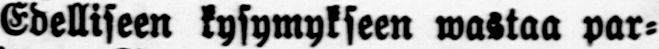Edelliseen kysymykseen wastaa par-
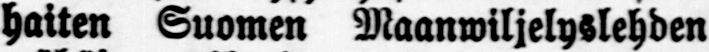haiten Suomen Maanwiljelyslehden
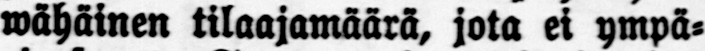wähäinen tilaajamäärä, jota ei ympä-
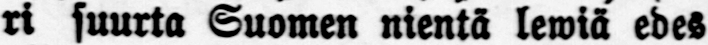ri suurta Suomen nientä lewiä edes
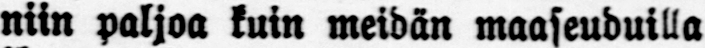niin paljoa kuin meidän maaseuduilla
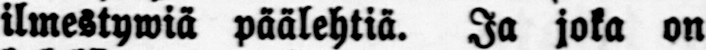ilmestywiä päälehtiä. Ja joka on
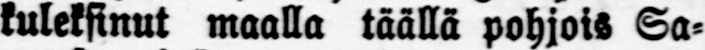kuleksinut maalla täällä pohjois Sa-
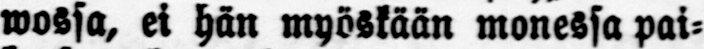wossa, ei hän myöskään monessa pai-
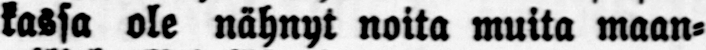kassa ole nähnyt noita muita maan-
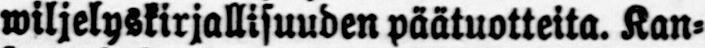wiljelyskirjallisuuden päätuotteita. Kan-
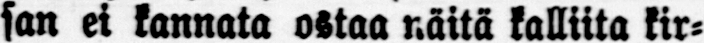san ei kannata ostaa näitä kalliita kir-
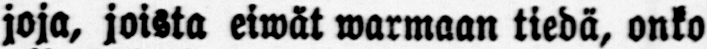joja, joista eiwät warmaan tiedä, onko
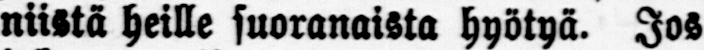niistä heille suoranaista hyötyä. Jos
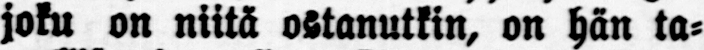joku on niitä ostanutkin, on hän ta-
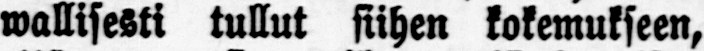wallisesti tullut siihen kokemukseen,
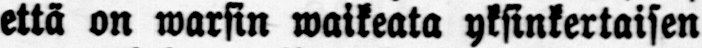että on warsin waikeata yksinkertaisen
